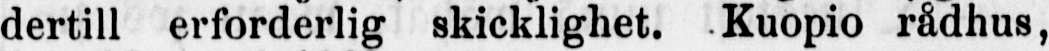dertill erforderlig skicklighet. Kuopio rådhus,
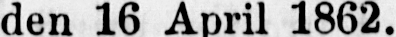den 16 April 1862.
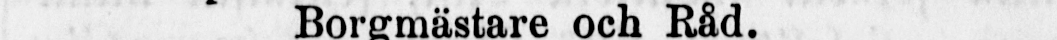Borgmästare och Råd.
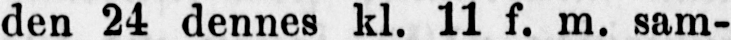Torsdagen den 24 dennes kl. 11 f. m. sam-
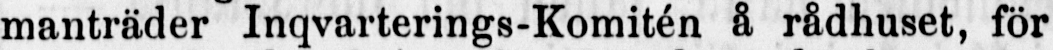manträder Inqvarterings-Komitén å rådhuset, för
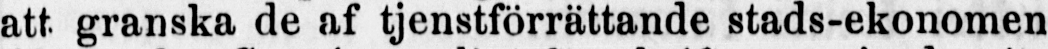att granska de af tjenstförrättande stads-ekonomen
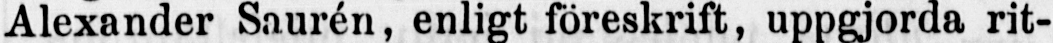Alexander Saurén, enligt föreskrift, uppgjorda rit-
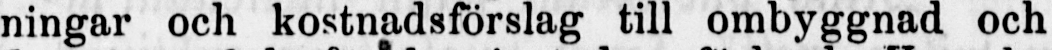ningar och kostnadsförslag till ombyggnad och
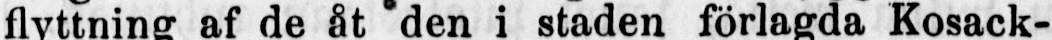flyttning af de åt den i staden förlagda Kosack-
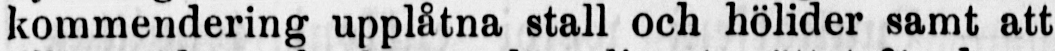kommendering upplåtna stall och hölider samt att
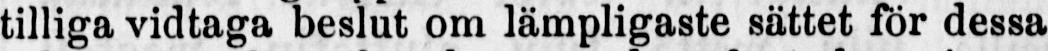tilliga vidtaga beslut om lämpligaste sättet f ör dessa
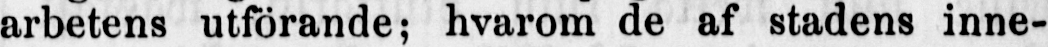arbetens utförande; hvarom de af stadens inne-
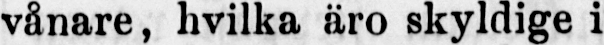vånare, hvilka, äro skyldige i Inqvarterings-tungan
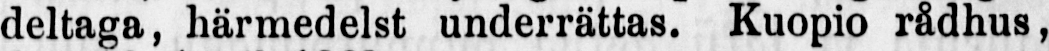deltaga, härmedelst underrättas. Kuopio rådhus,
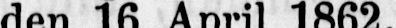den 16 April 1862.
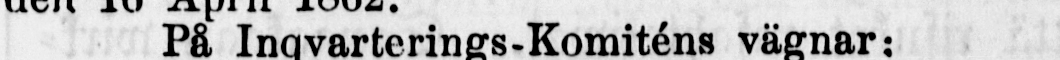På Inqvarterings-Komiténs vägnar;
